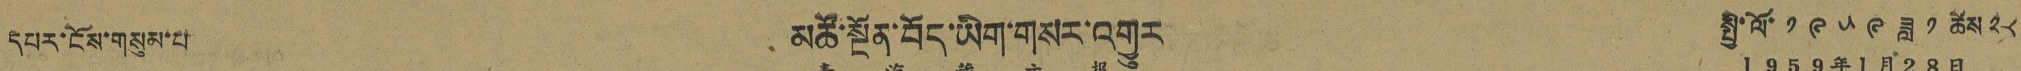དཔར་ངོས་གསུམ་པ མཚོ་སྔོན་བོད་ཡིག་གསར་འགྱུར སྤྱི་ལོ་ ༡ ༩ ༥ ༩ ཟླ ༡ ཚེས ༢༨
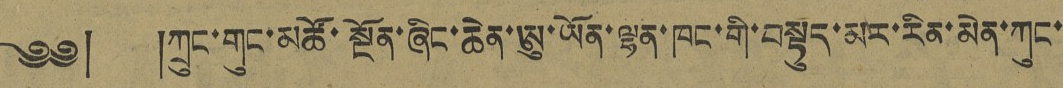༄༅། །ཀྲུང་གུང་མཚོ་སྔོན་ཞིང་ཆེན་ཨུ་ཡོན་ལྷན་ཁང་གི་བསྟུད་མར་རིན་མེད་ཀུང་
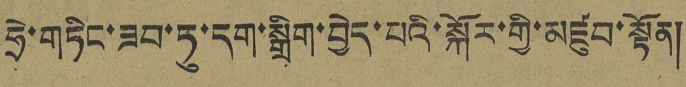ཧྲེ་གཏིང་ཟབ་ཏུ་དག་སྒྲིག་བྱེད་པའི་སྐོར་གྱི་མཛུབ་སྟོན།
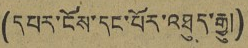(དཔར་ངོས་དང་པོར་འཐུད་རྒྱུ།)
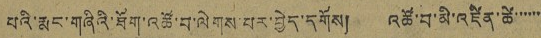པའི་རྨང་གཞིའི་ཐོག་འཚོ་བ་ལེགས་པར་བྱེད་དགོས། འཚོ་བ་མི་འཛིན་ཚེ་་་་་་་
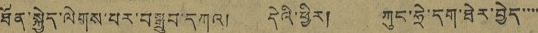ཐོན་སྐྱེད་ལེགས་པར་བསྒྲུབ་དཀའ། དེའི་ཕྱིར། ཀུང་ཧྲེ་དག་ཐེར་བྱེད་་་་
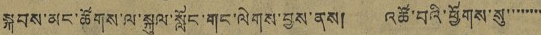སྐབས་མང་ཚོགས་ལ་སྐུལ་སློང་གང་ལེགས་བྱས་ནས། འཚོ་བའི་ཕྱོགས་སུ་་་་་་་་
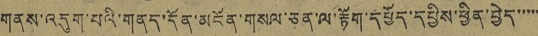གནས་འདུག་པའི་གནད་དོན་མངོན་གསལ་ཅན་ལ་རྟོག་དཔྱོད་དཔྱིས་ཕྱིན་བྱེད་་་་་
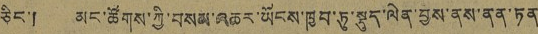ཅིང་། མང་ཚོགས་ཀྱི་བསམ་འཆར་ཡོངས་ཁྱབ་ཏུ་སྡུད་ལེན་བྱས་ནས་ནན་ཏན
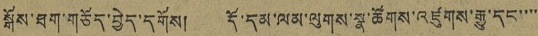སྒོས་ཐག་གཅོད་བྱེད་དགོས། དོ་དམ་ལམ་ལུགས་སྣ་ཚོགས་འཛུགས་རྒྱུ་དང་་་་་
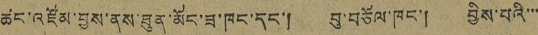ཚང་འཛོམ་བྱས་ནས་ཐུན་མོང་ཟ་ཁང་དང་། བུ་བཅོལ་ཁང་། བྱིས་པའི་་་
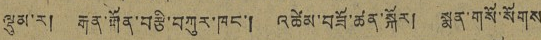ལྡུམ་ར། རྒན་རྒོན་བརྩི་བཀུར་ཁང་། འཚེམ་བཟོ་ཚན་སྐོར། སྨན་གསོ་སོགས
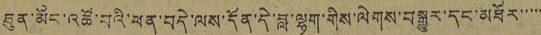ཐུན་མོང་འཚོ་བའི་ཕན་བདེ་ལས་དོན་དེ་བླ་ལྷག་གིས་ལེགས་བསྒྱུར་དང་མཐོར་་་་་
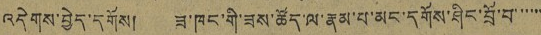འདེགས་བྱེད་དགོས། ཟ་ཁང་གི་ཟས་ཚོད་ལ་རྣམ་པ་མང་དགོས་ཤིང་བྲོ་བ་་་་་་
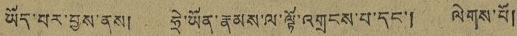ཡོད་པར་བྱས་ནས། ཧྲེ་ཡོན་རྣམས་ལ་ལྟོ་འགྲངས་པ་དང་། ལེགས་པོ།
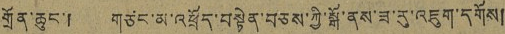གྲོན་ཆུང་། གཙང་མ་འཕྲོད་བསྟེན་བཅས་ཀྱི་སྒོ་ནས་ཟ་རུ་འཇུག་དགོས།
